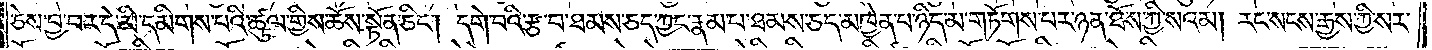ཅེས་བྱ་བར་དེ་མི་དམིགས་པའི་ཚུལ་གྱིས་ཆོས་སྟོན་ཅིང༌། དགེ་བའི་རྩ་བ་ཐམས་ཅད་ཀྱང་རྣམ་པ་ཐམས་ཅད་མཁྱེན་པ་ཉིད་མ་གཏོགས་པར་ཉན་ཐོས་ཀྱི་སའམ། རང་སངས་རྒྱས་ཀྱི་སར་
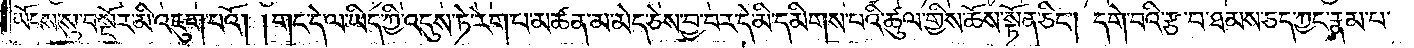ཡོངས་སུ་བསྔོར་མི་འཇུག་པའོ། །གང་དེ་ལ་ཡིད་ཀྱི་འདུས་ཏེ་རེག་པ་མཚན་མ་མེད་ཅེས་བྱ་བར་དེ་མི་དམིགས་པའི་ཚུལ་གྱིས་ཆོས་སྟོན་ཅིང༌། དགེ་བའི་རྩ་བ་ཐམས་ཅད་ཀྱང་རྣམ་པ་
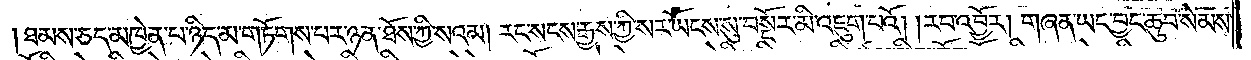ཐམས་ཅད་མཁྱེན་པ་ཉིད་མ་གཏོགས་པར་ཉན་ཐོས་ཀྱི་སའམ། རང་སངས་རྒྱས་ཀྱི་སར་ཡོངས་སུ་བསྔོར་མི་འཇུག་པའོ། །རབ་འབྱོར། གཞན་ཡང་བྱང་ཆུབ་སེམས་
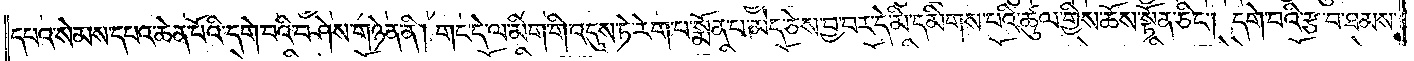དཔའ་སེམས་དཔའ་ཆེན་པོའི་དགེ་བའི་བཤེས་གཉེན་ནི། གང་དེ་ལ་མིག་གི་འདུས་ཏེ་རེག་པ་སྨོན་པ་མེད་ཅེས་བྱ་བར་དེ་མི་དམིགས་པའི་ཚུལ་གྱིས་ཆོས་སྟོན་ཅིང༌། དགེ་བའི་རྩ་བ་ཐམས་
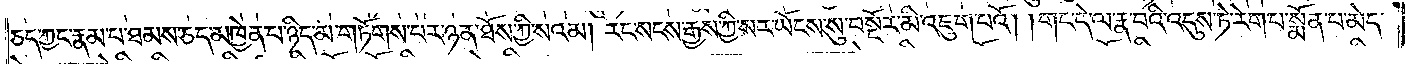ཅད་ཀྱང་རྣམ་པ་ཐམས་ཅད་མཁྱེན་པ་ཉིད་མ་གཏོགས་པར་ཉན་ཐོས་ཀྱི་སའམ། རང་སངས་རྒྱས་ཀྱི་སར་ཡོངས་སུ་བསྔོར་མི་འཇུག་པའོ། །གང་དེ་ལ་རྣ་བའི་འདུས་ཏེ་རེག་པ་སྨོན་པ་མེད་
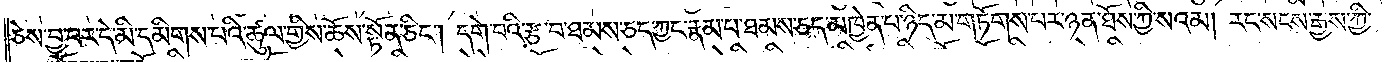ཅེས་བྱ་བར་དེ་མི་དམིགས་པའི་ཚུལ་གྱིས་ཆོས་སྟོན་ཅིང༌། དགེ་བའི་རྩ་བ་ཐམས་ཅད་ཀྱང་རྣམ་པ་ཐམས་ཅད་མཁྱེན་པ་ཉིད་མ་གཏོགས་པར་ཉན་ཐོས་ཀྱི་སའམ། རང་སངས་རྒྱས་ཀྱི་
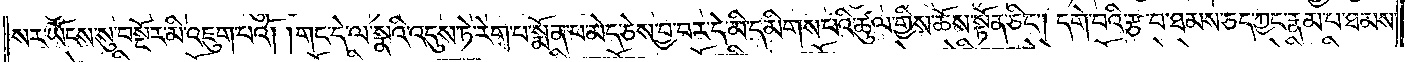སར་ཡོངས་སུ་བསྔོར་མི་འཇུག་པའོ། །གང་དེ་ལ་སྣའི་འདུས་ཏེ་རེག་པ་སྨོན་པ་མེད་ཅེས་བྱ་བར་དེ་མི་དམིགས་པའི་ཚུལ་གྱིས་ཆོས་སྟོན་ཅིང༌། དགེ་བའི་རྩ་བ་ཐམས་ཅད་ཀྱང་རྣམ་པ་ཐམས་
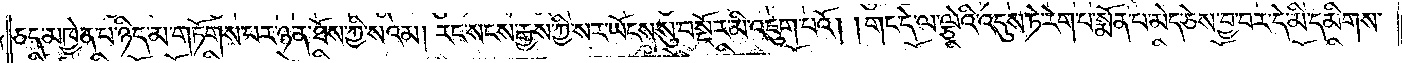ཅད་མཁྱེན་པ་ཉིད་མ་གཏོགས་པར་ཉན་ཐོས་ཀྱི་སའམ། རང་སངས་རྒྱས་ཀྱི་སར་ཡོངས་སུ་བསྔོར་མི་འཇུག་པའོ། །གང་དེ་ལ་ལྕེའི་འདུས་ཏེ་རེག་པ་སྨོན་པ་མེད་ཅེས་བྱ་བར་དེ་མི་དམིགས་
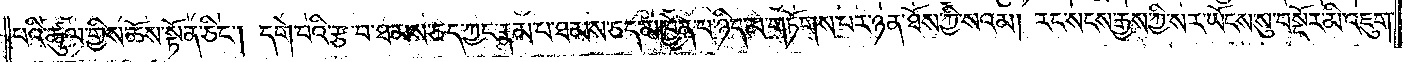པའི་ཚུལ་གྱིས་ཆོས་སྟོན་ཅིང༌། དགེ་བའི་རྩ་བ་ཐམས་ཅད་ཀྱང་རྣམ་པ་ཐམས་ཅད་མཁྱེན་པ་ཉིད་མ་གཏོགས་པར་ཉན་ཐོས་ཀྱི་སའམ། རང་སངས་རྒྱས་ཀྱི་སར་ཡོངས་སུ་བསྔོར་མི་འཇུག་
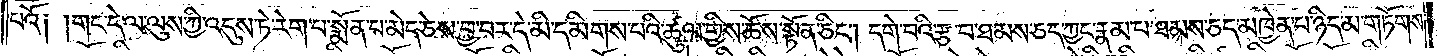པའོ༑ །གང་དེ་ལ་ལུས་ཀྱི་འདུས་ཏེ་རེག་པ་སྨོན་པ་མེད་ཅེས་བྱ་བར་དེ་མི་དམིགས་པའི་ཚུལ་གྱིས་ཆོས་སྟོན་ཅིང༌། དགེ་བའི་རྩ་བ་ཐམས་ཅད་ཀྱང་རྣམ་པ་ཐམས་ཅད་མཁྱེན་པ་ཉིད་མ་གཏོགས་
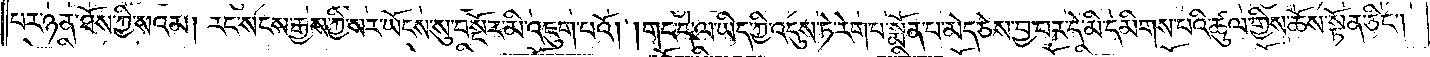པར་ཉན་ཐོས་ཀྱི་སའམ། རང་སངས་རྒྱས་ཀྱི་སར་ཡོངས་སུ་བསྔོར་མི་འཇུག་པའོ། །གང་དེ་ལ་ཡིད་ཀྱི་འདུས་ཏེ་རེག་པ་སྨོན་པ་མེད་ཅེས་བྱ་བར་དེ་མི་དམིགས་པའི་ཚུལ་གྱིས་ཆོས་སྟོན་ཅིང༌།
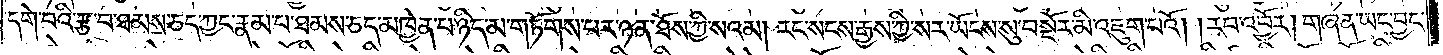དགེ་བའི་རྩ་བ་ཐམས་ཅད་ཀྱང་རྣམ་པ་ཐམས་ཅད་མཁྱེན་པ་ཉིད་མ་གཏོགས་པར་ཉན་ཐོས་ཀྱི་སའམ། རང་སངས་རྒྱས་ཀྱི་སར་ཡོངས་སུ་བསྔོར་མི་འཇུག་པའོ། །རབ་འབྱོར། གཞན་ཡང་བྱང་
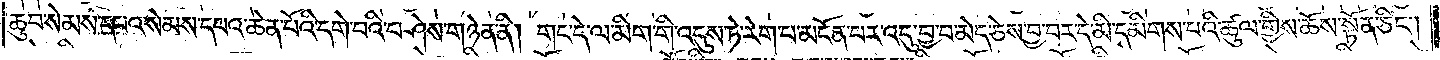ཆུབ་སེམས་དཔའ་སེམས་དཔའ་ཆེན་པོའི་དགེ་བའི་བཤེས་གཉེན་ནི། གང་དེ་ལ་མིག་གི་འདུས་ཏེ་རེག་པ་མངོན་པར་འདུ་བྱ་བ་མེད་ཅེས་བྱ་བར་དེ་མི་དམིགས་པའི་ཚུལ་གྱིས་ཆོས་སྟོན་ཅིང༌།
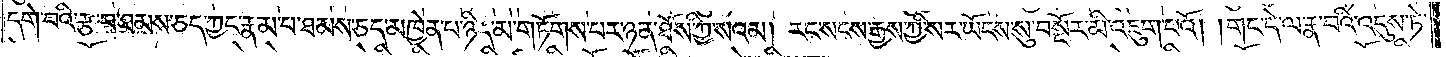དགེ་བའི་རྩ་བ་ཐམས་ཅད་ཀྱང་རྣམ་པ་ཐམས་ཅད་མཁྱེན་པ་ཉིད་མ་གཏོགས་པར་ཉན་ཐོས་ཀྱི་སའམ། རང་སངས་རྒྱས་ཀྱི་སར་ཡོངས་སུ་བསྔོར་མི་འཇུག་པའོ། །གང་དེ་ལ་རྣ་བའི་འདུས་ཏེ་
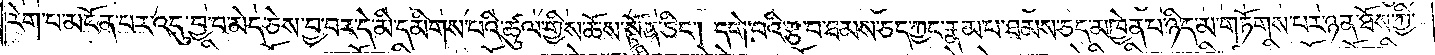རེག་པ་མངོན་པར་འདུ་བྱ་བ་མེད་ཅེས་བྱ་བར་དེ་མི་དམིགས་པའི་ཚུལ་གྱིས་ཆོས་སྟོན་ཅིང༌། དགེ་བའི་རྩ་བ་ཐམས་ཅད་ཀྱང་རྣམ་པ་ཐམས་ཅད་མཁྱེན་པ་ཉིད་མ་གཏོགས་པར་ཉན་ཐོས་ཀྱི་
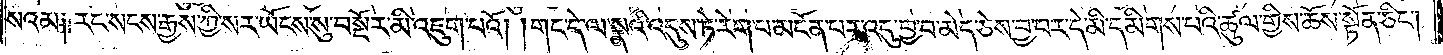སའམ༑ རང་སངས་རྒྱས་ཀྱི་སར་ཡོངས་སུ་བསྔོར་མི་འཇུག་པའོ། །གང་དེ་ལ་སྣའི་འདུས་ཏེ་རེག་པ་མངོན་པར་འདུ་བྱ་བ་མེད་ཅེས་བྱ་བར་དེ་མི་དམིགས་པའི་ཚུལ་གྱིས་ཆོས་སྟོན་ཅིང༌།
